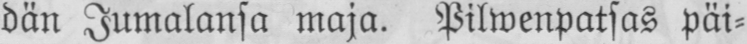dän Jumalansa maja. Pilwenpatsas päi-
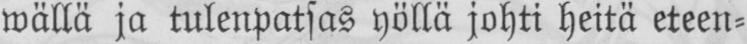wällä ja tulenpatsas yöllä johti heitä eteen-
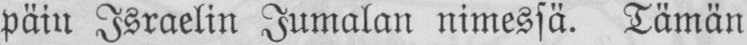päin Israelin Jumalan nimessä. Tämän
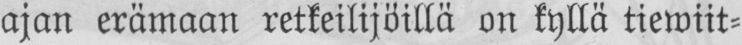ajan erämaan retkeilijöillä on kyllä tiewiit-
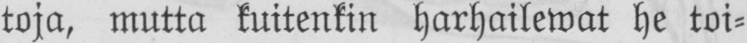toja, mutta kuitenkin harhailewat he toi-
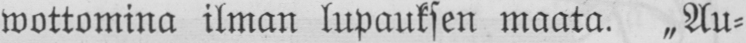wottomina ilman lupauksen maata. „Au-
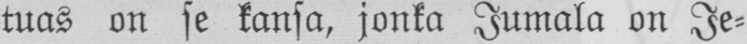tuas on se kansa, jonka Jumala on Je-
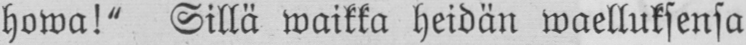howa!" Sillä waikka heidän waelluksensa
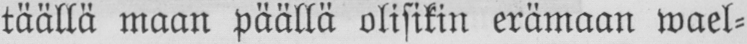täällä maan päällä olisikin erämaan wael-
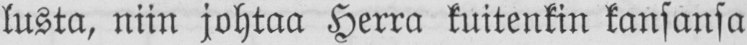lusta, niin johtaa Herra kuitenkin kansansa
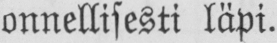onnellisesti läpi.
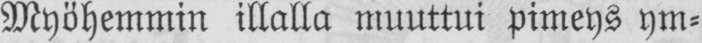Myöhemmin illalla muuttui pimeys ym-
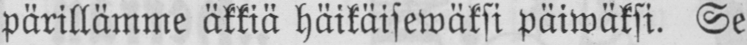pärillämme äkkiä häikäisewäksi päiwäksi. Se
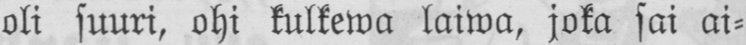oli suuri, ohi kulkewa laiwa, joka sai ai-
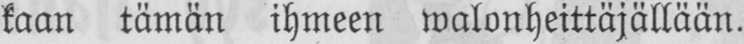kaan tämän ihmeen walonheittäjällään.
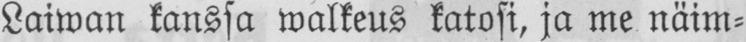Laiwan kanssa walkeus katosi, ja me näim-
